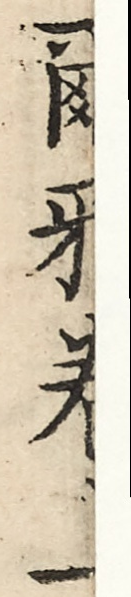爾雅卷一
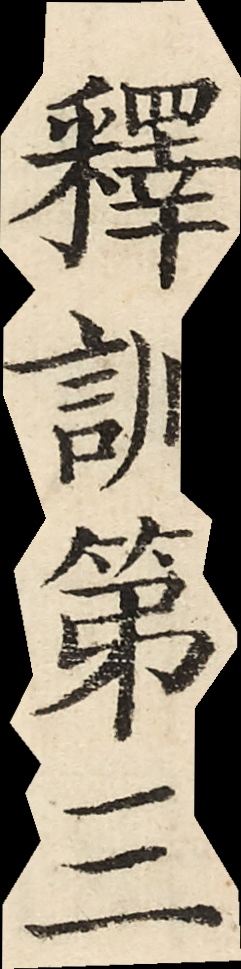釋訓第三
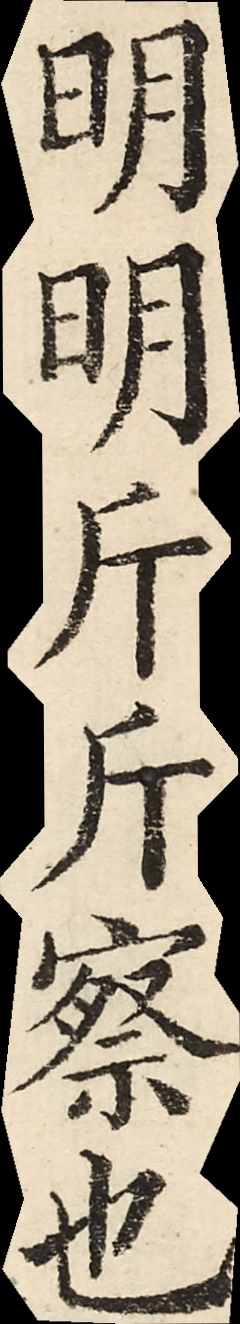明明斤斤察也
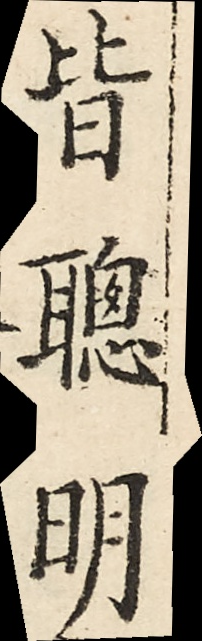皆聰明
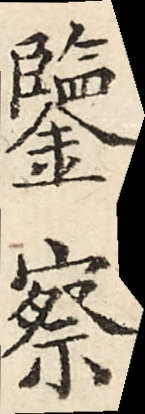鑒察
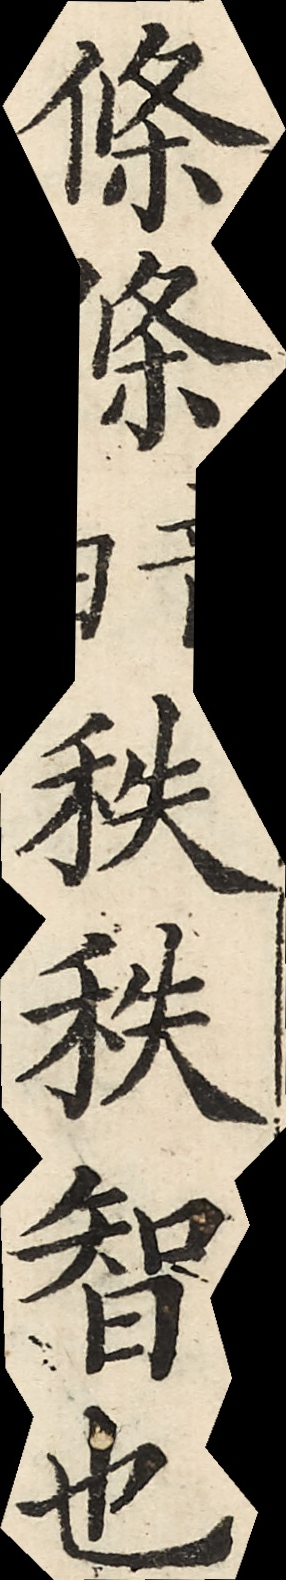條條秩秩智也
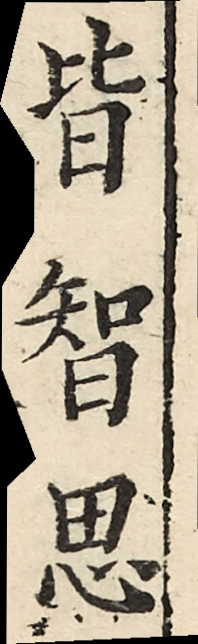皆智思
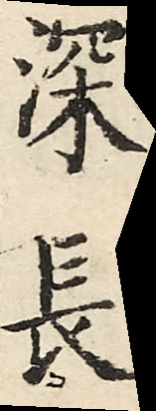深長
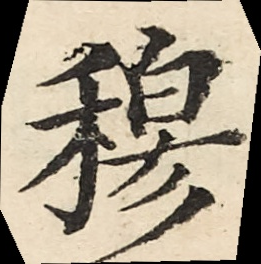穆
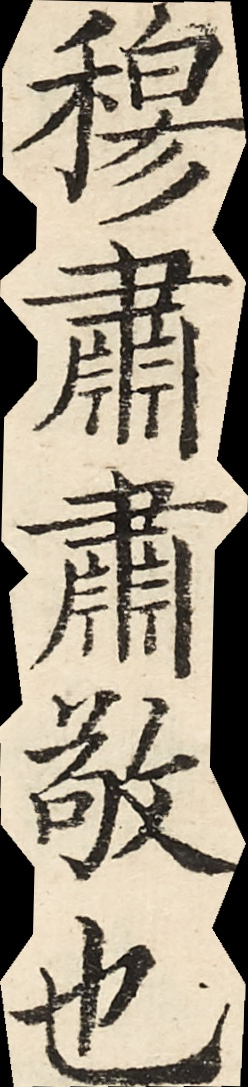穆肅肅敬也
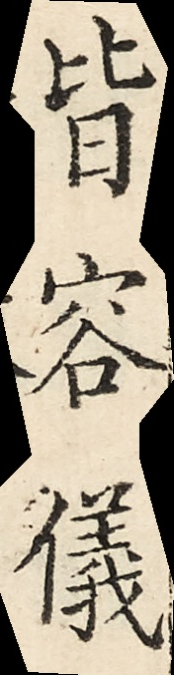皆容儀
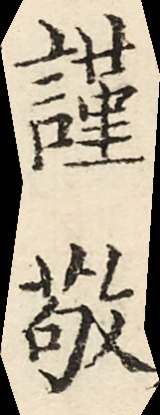謹敬
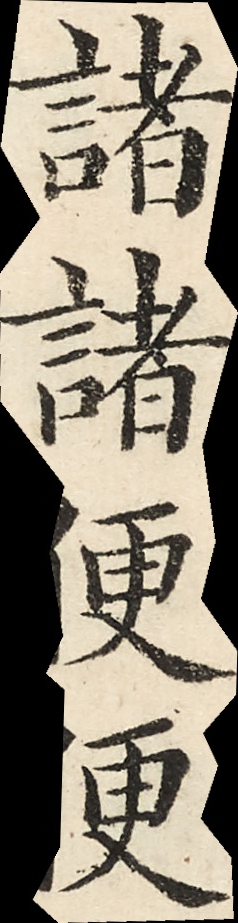諸諸便便
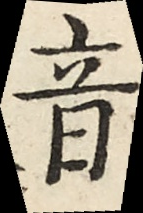音
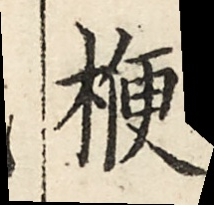楩
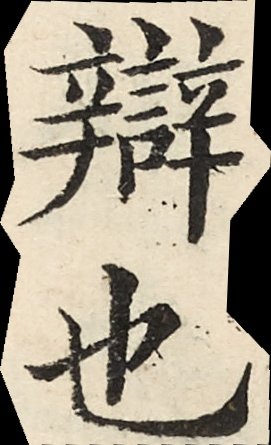辯也
